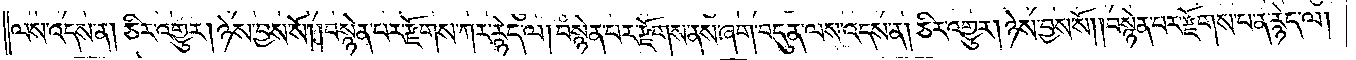ལས་འདས་ན། ཅིར་འགྱུར། ཉེས་བྱས་སོ། །བསྙེན་པར་རྫོགས་ཀར་རྙེད་ལ། བསྙེན་པར་རྫོགས་ནས་ཞག་བདུན་ལས་འདས་ན། ཅིར་འགྱུར། ཉེས་བྱས་སོ། །བསྙེན་པར་རྫོགས་པ་ན་རྙེད་ལ།
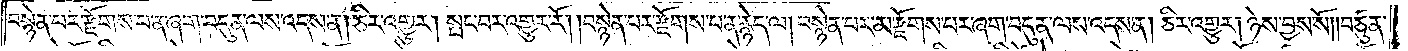བསྙེན་པར་རྫོགས་པ་ན་ཞག་བདུན་ལས་འདས་ན། ཅིར་འགྱུར། སྤང་བར་འགྱུར་རོ། །བསྙེན་པར་རྫོགས་པ་ན་རྙེད་ལ། བསྙེན་པར་མ་རྫོགས་པར་ཞག་བདུན་ལས་འདས་ན། ཅིར་འགྱུར། ཉེས་བྱས་སོ། །བཙུན་
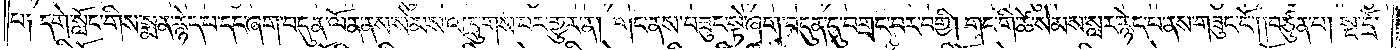པ༑ དགེ་སློང་གིས་སྨན་རྙེད་པ་དང་ཞག་བདུན་ལོན་ནས་སེམས་འཁྲུགས་པར་གྱུར་ན། གང་ནས་བཟུང་སྟེ་ཞག་བདུན་དུ་བགྲང་བར་བགྱི། གང་གི་ཚེ་སེམས་སླར་རྙེད་པ་ནས་གཟུང་ངོ༌། །བཙུན་པ། སྔ་དྲོ་
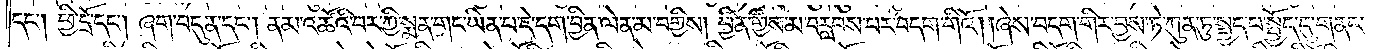དང༌། ཕྱི་དྲོ་དང༌། ཞག་བདུན་དང༌། ནམ་འཚོའི་བར་ཀྱི་སྨན་གང་ཡིན་པ་དེ་དག་བྱིན་ལེན་མ་བགྱིས། བྱིན་གྱིས་མ་བརླབས་པར་བདག་གིའོ། །ཞེས་བདག་གིར་བྱས་ཏེ་ཀུན་ཏུ་སྤྱད་པ་སྤྱོད་དུ་གནང་
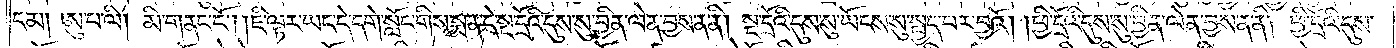ངམ། ཨུ་པ་ལི། མི་གནང་ངོ༌། །ཇི་ལྟར་ཡང་དེ་དགེ་སློང་གིས་སྨན་དེ་སྔ་དྲོའི་དུས་སུ་བྱིན་ལེན་བྱས་ན་ནི། སྔ་དྲོའི་དུས་སུ་ཡོངས་སུ་སྤྱད་པར་བྱའོ། །ཕྱི་དྲོའི་དུས་སུ་བྱིན་ལེན་བྱས་ན་ནི། ཕྱི་དྲོའི་དུས་
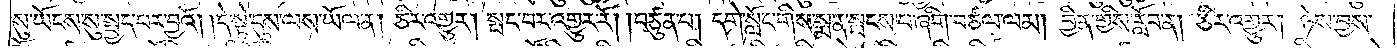སུ་ཡོངས་སུ་སྤྱད་པར་བྱའོ། །དེ་སྟེ་དུས་ལས་ཡོལ་ན། ཅིར་འགྱུར། སྤང་བར་འགྱུར་རོ། །བཙུན་པ། དགེ་སློང་གིས་སྨན་སྤངས་པ་ཞིག་བཙལ་ལམ། བྱིན་གྱིས་རློབ་ན། ཅིར་འགྱུར། ཉེས་བྱས་
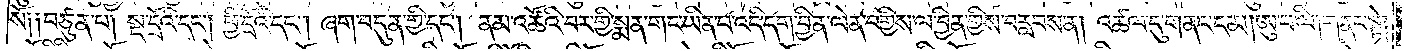སོ༑ ༑བཙུན་པ། སྔོ་དྲོའི་དང༌། ཕྱི་དྲོའི་དང༌། ཞག་བདུན་གྱི་དང༌། ནམ་འཚོའི་བར་གྱི་སྨན་གང་ཡིན་པ་འདི་དག་བྱིན་ལེན་བགྱིས་ལ་བྱིན་གྱིས་བརླབས་ན། འཚལ་དུ་གནང་ངམ། ཨུ་པ་ལི། གནང་སྟེ།
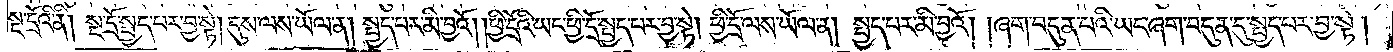སྔ་དྲོའི་ནི། སྔ་དྲོ་སྤྱད་པར་བྱ་སྟེ། དུས་ལས་ཡོལ་ན། སྤྱད་པར་མི་བྱའོ། །ཕྱི་དྲོའི་ཡང་ཕྱི་དྲོ་སྤྱད་པར་བྱ་སྟེ། ཕྱི་དྲོ་ལས་ཡོལ་ན། སྤྱད་པར་མི་བྱའོ། །ཞག་བདུན་པའི་ཡང་ཞག་བདུན་དུ་སྤྱད་པར་བྱ་སྟེ།
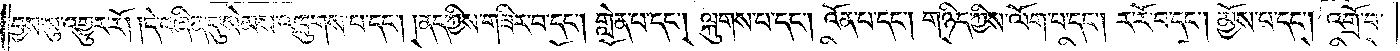བྱས་སུ་འགྱུར་རོ། །དེ་བཞིན་དུ་སེམས་འཁྲུགས་པ་དང༌། །ནད་ཀྱིས་གཟིར་བ་དང༌། གླེན་པ་དང༌། ལྐུགས་པ་དང༌། འོན་པ་དང༌། གཉིད་ཀྱིས་ལོག་པ་དང༌། ར་རོ་བ་དང༌། མྱོས་པ་དང༌། འགྲོ་བ་
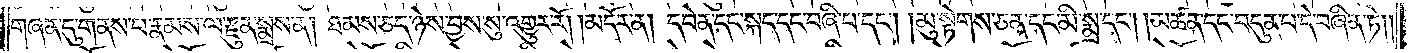གཞན་དུ་གནས་པ་རྣམས་ལ་རྫུན་སྨྲས་ན། ཐམས་ཅད་ཉེས་བྱས་སུ་འགྱུར་རོ། །མདོར་ན། དབེན་དང་སྐད་དང་བཞི་པ་དང༌། །མུ་སྟེགས་ཅན་དང་མི་སྨྲ་དང༌། །མཚན་དང་བདུན་པ་དེ་བཞིན་ཏེ། །
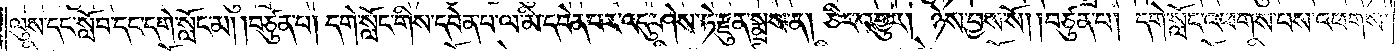ལུས་དང་སློབ་དང་དགེ་སློང་མ། །བཙུན་པ། དགེ་སློང་གིས་དབེན་པ་ལ་མི་དབེན་པར་འདུ་ཤེས་ཏེ་རྫུན་སྨྲས་ན། ཅིར་འགྱུར། ཉེས་བྱས་སོ། །བཙུན་པ། དགེ་སློང་འཕགས་པས་འཕགས་
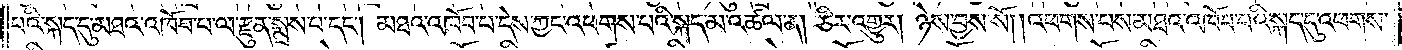པའི་སྐད་དུ་མཐའ་འཁོབ་པ་ལ་རྫུན་སྨྲས་པ་དང༌། མཐའ་འཁོབ་པ་དེས་ཀྱང་འཕགས་པའི་སྐད་མ་འཚལ་ན། ཅིར་འགྱུར། ཉེས་བྱས་སོ། །འཕགས་པས་མཐའ་འཁོབ་པའི་སྐད་དུ་འཕགས་
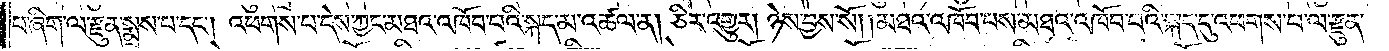པ་ཞིག་ལ་རྫུན་སྨྲས་པ་དང༌། འཕགས་པ་དེས་ཀྱང་མཐའ་འཁོབ་པའི་སྐད་མ་འཚལ་ན། ཅིར་འགྱུར། ཉེས་བྱས་སོ། །མཐའ་འཁོབ་པས་མཐའ་འཁོབ་པའི་སྐད་དུ་འཕགས་པ་ལ་རྫུན་
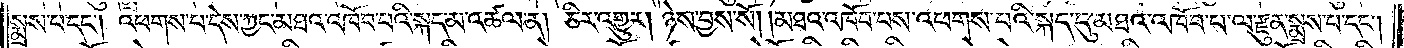སྨྲས་པ་དང༌། འཕགས་པ་དེས་ཀྱང་མཐའ་འཁོབ་པའི་སྐད་མ་འཚལ་ན། ཅིར་འགྱུར། ཉེས་བྱས་སོ། །མཐའ་འཁོབ་པས་འཕགས་པའི་སྐད་དུ་མཐའ་འཁོབ་པ་ལ་རྫུན་སྨྲས་པ་དང༌།
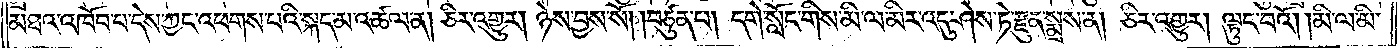མཐའ་འཁོབ་པ་དེས་ཀྱང་འཕགས་པའི་སྐད་མ་འཚལ་ན། ཅིར་འགྱུར། ཉེས་བྱས་སོ། །བཙུན་པ། དགེ་སློང་གིས་མི་ལ་མིར་འདུ་ཤེས་ཏེ་རྫུན་སྨྲས་ན། ཅིར་འགྱུར། ལྟུང་བའོ། །མི་ལ་མི་
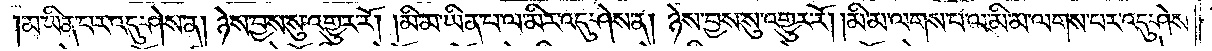མ་ཡིན་པར་འདུ་ཤེས་ན། ཉེས་བྱས་སུ་འགྱུར་རོ། །མི་མ་ཡིན་པ་ལ་མིར་འདུ་ཤེས་ན། ཉེས་བྱས་སུ་འགྱུར་རོ། །མི་མ་ལགས་པ་ལ་མི་མ་ལགས་པར་འདུ་ཤེས་
